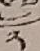༢
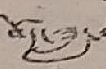བོད་ཟླ་
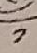༡
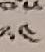༢༤
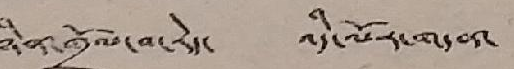ཉིན་གྲོལ་བ་རེད་ འདི་ལོར་གདན་
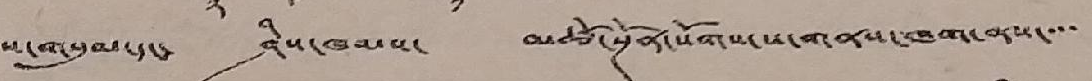ས་གསུམ་དང་ ཤིས་ཁམས་ མཚོ་སྔོན་སོགས་ས་གནས་ཁག་ནས་་་་
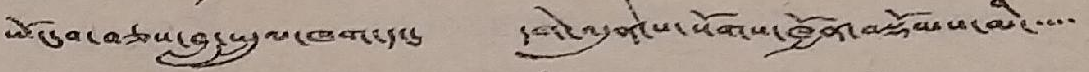ཡོང་བ་བཅས་བླ་སྤྲུལ་ཁག་དང་ དགེ་འདུན་པ་སོགས་ཁྱོན་བསྡོམས་མི་་་་་
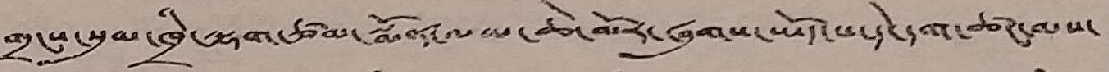གྲངས་སུམ་ཁྲི་ལྷག་ཙམ་སྨོན་ལམ་ཆེ་མོར་ཞུགས་ཡོད་པ་དེ་དག་ཚང་མས་
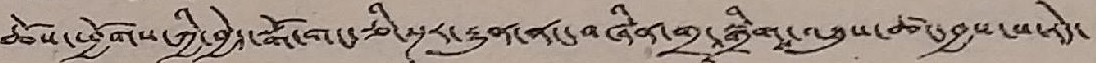ཆོས་ཕྱོགས་ཀྱི་བྱེད་སྒོ་གང་ཅི་སྔར་རྒྱུན་ནང་བཞིན་གྲྭ་སྒྲིག་འཐུས་ཚང་བྱས་པ་རེད་
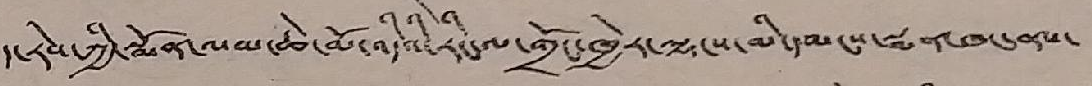ད་རེས་ཀྱི་སྨོན་ལམ་ཆེ་མོ་འདིའི་རིང་ལ་གྲོང་ཁྱེར་ལྷ་ས་མི་དམངས་སྨན་ཁང་ནས་
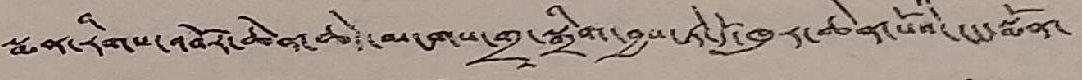སྨན་རིགས་འབོར་ཆེན་ཆེ་མངགས་གྲྭ་སྒྲིག་བྱས་ཏེ་དོ་ཁུར་ཆེན་པོའི་ངང་སྨོན་
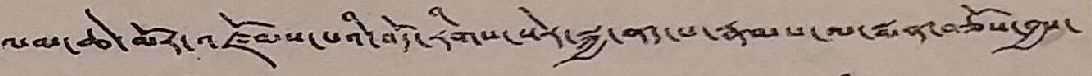ལམ་ཆེ་མོར་འཛོམས་པའི་བོད་རིགས་སེར་སྐྱ་ནད་པ་རྣམས་ལ་སྨན་བཅོས་བྱས་
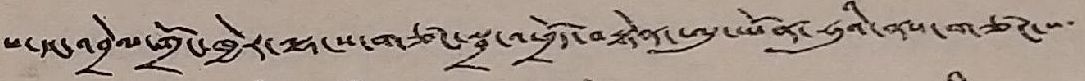པ་དང་འབྲེལ་གྲོང་ཁྱེར་ལྷ་ས་གཙང་སྦྲ་འཕྲོད་བསྟེན་ཨུ་ཡོན་ཧུའི་ནས་གཙང་་་་
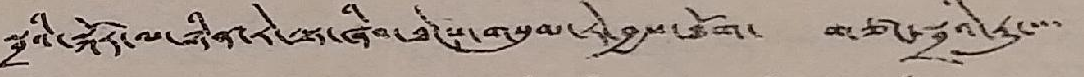སྦྲའི་སྐོར་ལ་ཉིན་རེ་ལྟ་ཞིབ་ཐེངས་གསུམ་རེ་བྱས་ཐོག་ གཙང་སྦྲའི་རུ་་་་
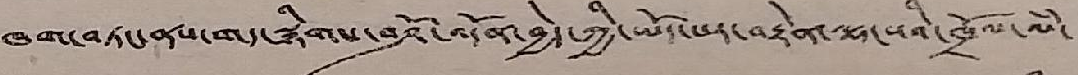ཁག་བཏང་ནས་གད་སྙིགས་བཤོ་འདོན་བྱེད་ཀྱི་ཡོད་པར་བརྟེན་ལྷ་སའི་ཁྲོན་ལཾ་
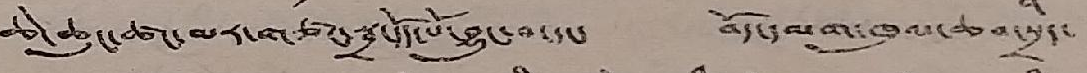ཆེ་ཆུང་ཚང་མར་གཙང་སྦྲ་དོད་པོ་བྱུང་བ་དང་ བོད་དམག་ཁུལ་ཆབ་སྲིད་
